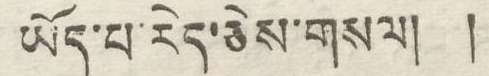ཡོད་པ་རེད་ཅེས་གསལ། །
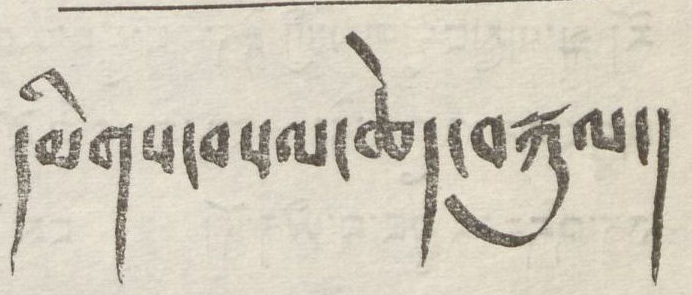དམིགས་བསལ་ཆེད་བསྐུལ།
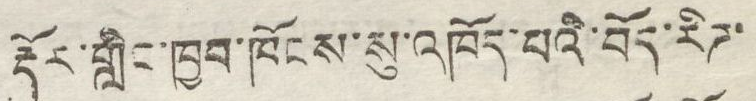རྡོར་གླིང་ཁྱབ་ཁོངས་སུ་འཁོད་པའི་བོད་རིཌ་
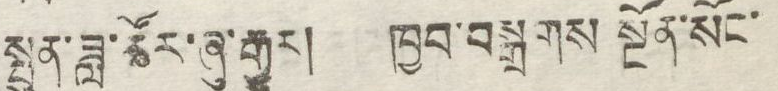སྤུན་ཟླ་ཚོར་ཞུ་རྒྱུར། ཁྱབ་བསྒྲགས སྔོན་སོང་
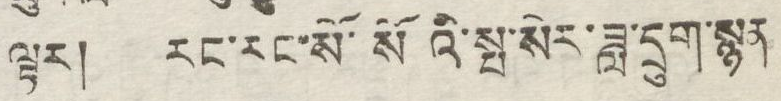ལྟར། རང་རང་སོ་སོའི་སྤ་སེར་ཟླ་དྲུག་སྙན
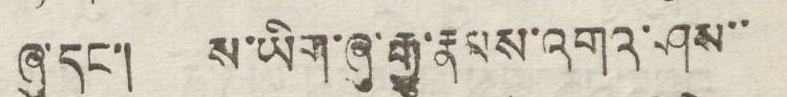ཞུ་དང་། ས་ཡིག་ཞུ་རྒྱུ་རྣམས་འགའ་ཤས་་
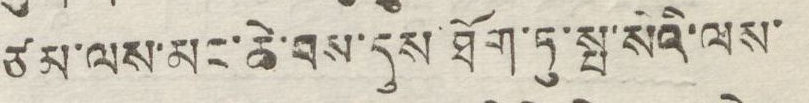ཙམ་ལས་མང་ཆེ་བས་དུས་ཐོག་ཏུ་སྤ་སེའི་ལས་
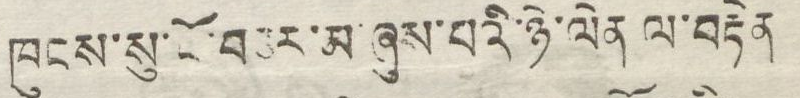ཁུངས་སུ་ངོ་བཅར་མ་ཞུས་པའི་ཉེ་ལེན ལ་བརྟེན་
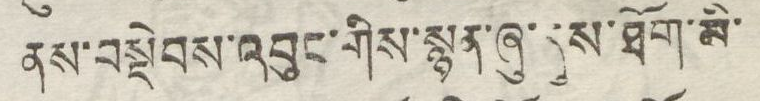ནས་བསྡེབས་འབུང་གིས་སྙན་ཞུ་དུས་ཐོག་མི་
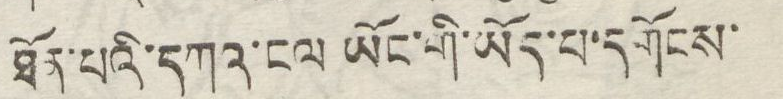ཐོན་པའི་དཀའ་ངལ ཡོང་གི་ཡོད་པ་དགོངས་
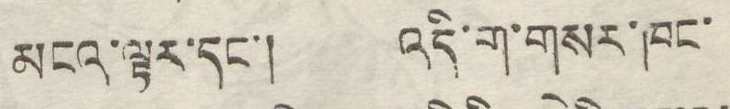མངའ་ལྟར་དང་། འདི་ག་གསར་ཁང་
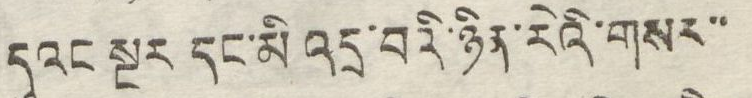དུའང སྔར དང་མི འདྲ་བའི་ཉིན་རེའི་གསར་་
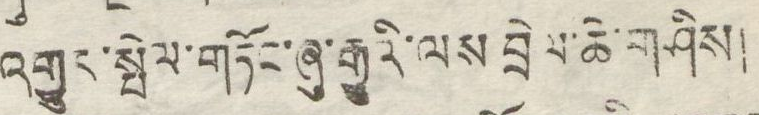འགྱུར་སྤེལ་གཏོང་ཞུ་རྒྱུའི་ལས་བྲེལ་ཆེ་གཤིས།
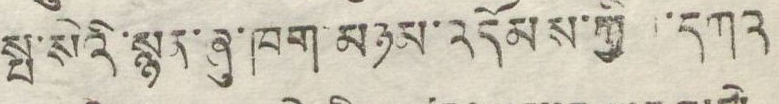སྤ་སེའི་སྙན་ཞུ་ཁག་མཉམ་འདོམས་ཀྱིས་དཀའ
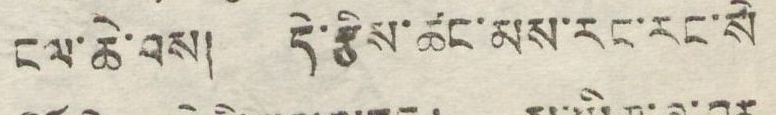ངལ་ཆེ་བས། དེ་རྩིས་ཚང་མས་རང་རང་སོ
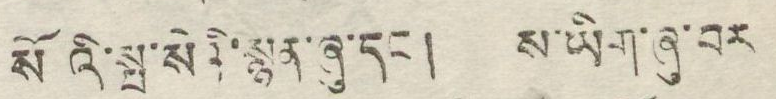སོ འི་སྤ་སེའི་སྙན་ཞུ་དང་། ས་ཡིག་ཞུ་བར་
